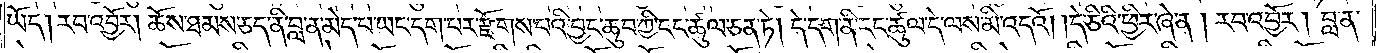ཡོད། རབ་འབྱོར། ཆོས་ཐམས་ཅད་ནི་བླ་ན་མེད་པ་ཡང་དག་པར་རྫོགས་པའི་བྱང་ཆུབ་ཀྱི་ངང་ཚུལ་ཅན་ཏེ། དེ་དག་ནི་ངང་ཚུལ་དེ་ལས་མི་འདའོ། །དེ་ཅིའི་ཕྱིར་ཞེ་ན། རབ་འབྱོར། བླ་ན་
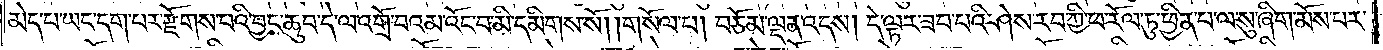མེད་པ་ཡང་དག་པར་རྫོགས་པའི་བྱང་ཆུབ་དེ་ལ་འགྲོ་བའམ་འོང་བ་མི་དམིགས་སོ། །གསོལ་པ། བཅོམ་ལྡན་འདས། དེ་ལྟར་ཟབ་པའི་ཤེས་རབ་ཀྱི་ཕ་རོལ་ཏུ་ཕྱིན་པ་ལ་སུ་ཞིག་མོས་པར་
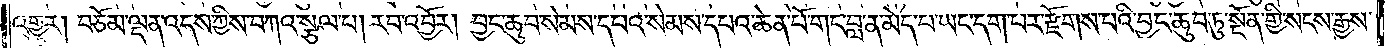འགྱུར། བཅོམ་ལྡན་འདས་ཀྱིས་བཀའ་སྩལ་པ། རབ་འབྱོར། བྱང་ཆུབ་སེམས་དཔའ་སེམས་དཔའ་ཆེན་པོ་གང་བླ་ན་མེད་པ་ཡང་དག་པར་རྫོགས་པའི་བྱང་ཆུབ་ཏུ་སྔོན་གྱི་སངས་རྒྱས་
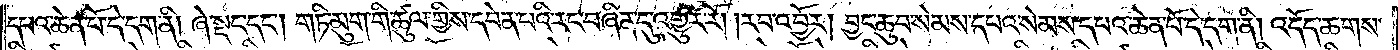དཔའ་ཆེན་པོ་དེ་དག་ནི། ཞེ་སྡང་དང༌། གཏི་མུག་གི་ཚུལ་གྱིས་བདེན་པའི་རང་བཞིན་དུ་འགྱུར་རོ། །རབ་འབྱོར། བྱང་ཆུབ་སེམས་དཔའ་སེམས་དཔའ་ཆེན་པོ་དེ་དག་ནི། འདོད་ཆགས་
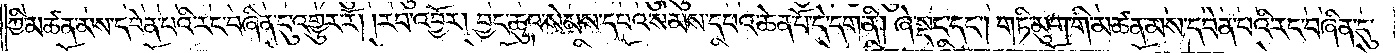ཀྱི་མཚན་མས་དབེན་པའི་རང་བཞིན་དུ་འགྱུར་རོ། །རབ་འབྱོར། བྱང་ཆུབ་སེམས་དཔའ་སེམས་དཔའ་ཆེན་པོ་དེ་དག་ནི། ཞེ་སྡང་དང༌། གཏི་མུག་གི་མཚན་མས་དབེན་པའི་རང་བཞིན་དུ་
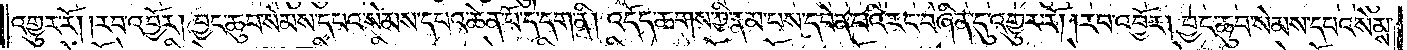འགྱུར་རོ། །རབ་འབྱོར། བྱང་ཆུབ་སེམས་དཔའ་སེམས་དཔའ་ཆེན་པོ་དེ་དག་ནི། འདོད་ཆགས་ཀྱི་རྣམ་པས་དབེན་པའི་རང་བཞིན་དུ་འགྱུར་རོ། །རབ་འབྱོར། བྱང་ཆུབ་སེམས་དཔའ་སེམས་
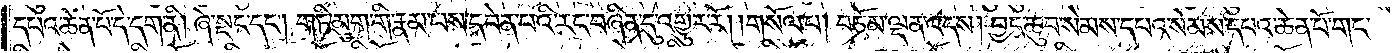དཔའ་ཆེན་པོ་དེ་དག་ནི། ཞེ་སྡང་དང༌། གཏི་མུག་གི་རྣམ་པས་དབེན་པའི་རང་བཞིན་དུ་འགྱུར་རོ། །གསོལ་པ། བཅོམ་ལྡན་འདས། བྱང་ཆུབ་སེམས་དཔའ་སེམས་དཔའ་ཆེན་པོ་གང་
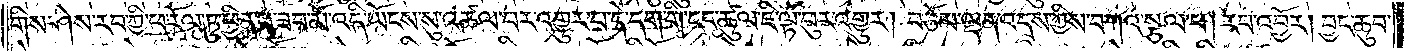གིས་ཤེས་རབ་ཀྱི་ཕ་རོལ་ཏུ་ཕྱིན་པ་ཟབ་མོ་འདི་ཡོངས་སུ་འཚལ་བར་འགྱུར་བ་དེ་དག་གི་ངང་ཚུལ་ཇི་ལྟ་བུར་འགྱུར། བཅོམ་ལྡན་འདས་ཀྱིས་བཀའ་སྩལ་པ། རབ་འབྱོར། བྱང་ཆུབ་
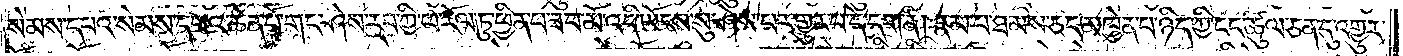སེམས་དཔའ་སེམས་དཔའ་ཆེན་པོ་གང་ཤེས་རབ་ཀྱི་ཕ་རོལ་ཏུ་ཕྱིན་པ་ཟབ་མོ་འདི་ཡོངས་སུ་ཤེས་པར་གྱུར་པ་དེ་དག་ནི། རྣམ་པ་ཐམས་ཅད་མཁྱེན་པ་ཉིད་ཀྱི་ངང་ཚུལ་ཅན་དུ་འགྱུར་
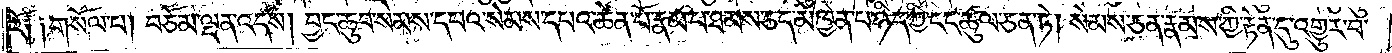རོ༑ ༑གསོལ་པ། བཅོམ་ལྡན་འདས། བྱང་ཆུབ་སེམས་དཔའ་སེམས་དཔའ་ཆེན་པོ་རྣམ་པ་ཐམས་ཅད་མཁྱེན་པ་ཉིད་ཀྱི་ངང་ཚུལ་ཅན་ཏེ། སེམས་ཅན་རྣམས་ཀྱི་རྟེན་དུ་འགྱུར་བ་
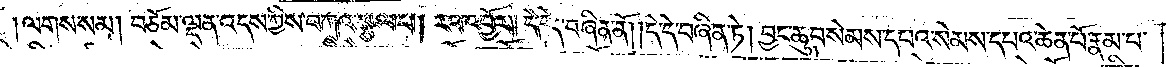ལགས་སམ། བཅོམ་ལྡན་འདས་ཀྱིས་བཀའ་སྩལ་པ། རབ་འབྱོར། དེ་དེ་བཞིན་ནོ། །དེ་དེ་བཞིན་ཏེ། བྱང་ཆུབ་སེམས་དཔའ་སེམས་དཔའ་ཆེན་པོ་རྣམ་པ་
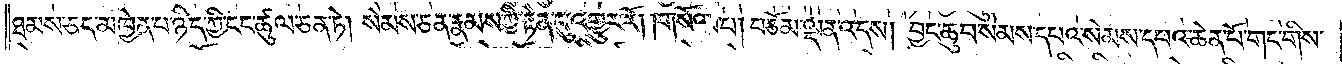ཐམས་ཅད་མཁྱེན་པ་ཉིད་ཀྱི་ངང་ཚུལ་ཅན་ཏེ། སེམས་ཅན་རྣམས་ཀྱི་རྟེན་དུ་འགྱུར་རོ། །གསོལ་པ། བཅོམ་ལྡན་འདས། བྱང་ཆུབ་སེམས་དཔའ་སེམས་དཔའ་ཆེན་པོ་གང་གིས་
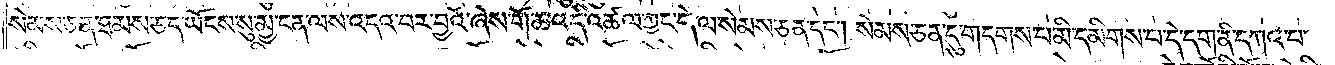སེམས་ཅན་ཐམས་ཅད་ཡོངས་སུ་མྱ་ངན་ལས་འདའ་བར་བྱའོ་ཞེས་གོ་ཆ་འདི་འཚལ་ཀྱང་དེ་ལ་སེམས་ཅན་དང༌། སེམས་ཅན་དུ་གདགས་པ་མི་དམིགས་པ་དེ་དག་ནི་དཀའ་བ་
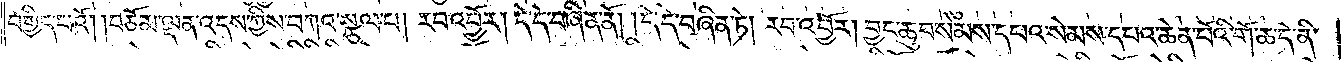བགྱིད་པའོ། །བཅོམ་ལྡན་འདས་ཀྱིས་བཀའ་སྩལ་པ། རབ་འབྱོར། དེ་དེ་བཞིན་ནོ། དེ་དེ་བཞིན་ཏེ། རབ་འབྱོར། བྱང་ཆུབ་སེམས་དཔའ་སེམས་དཔའ་ཆེན་པོའི་གོ་ཆ་དེ་ནི་
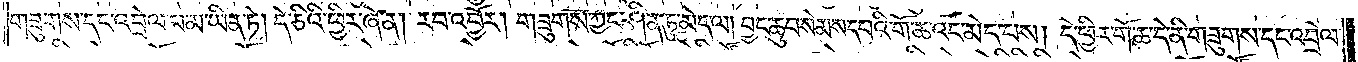གཟུགས་དང་འབྲེལ་པ་མ་ཡིན་ཏེ། དེ་ཅིའི་ཕྱིར་ཞེ་ན། རབ་འབྱོར། གཟུགས་ཀྱང་ཤིན་ཏུ་མེད་ལ། བྱང་ཆུབ་སེམས་དཔའི་གོ་ཆའང་མེད་པས། དེའི་ཕྱིར་གོ་ཆ་དེ་ནི་གཟུགས་དང་འབྲེལ་
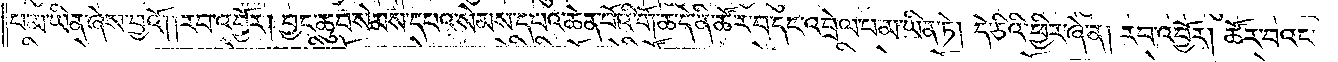པ་མ་ཡིན་ཞེས་བྱའོ། །རབ་འབྱོར། བྱང་ཆུབ་སེམས་དཔའ་སེམས་དཔའ་ཆེན་པོའི་གོ་ཆ་དེ་ནི་ཚོར་བ་དང་འབྲེལ་པ་མ་ཡིན་ཏེ། དེ་ཅིའི་ཕྱིར་ཞེ་ན། རབ་འབྱོར། ཚོར་བའང་
